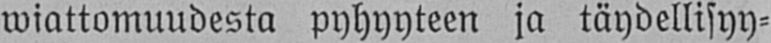wiattomuudesta pyhyyteen ja täydellisyy-
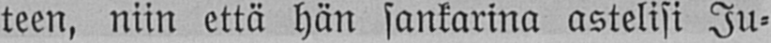teen, niin että hän sankarina astelisi Ju-
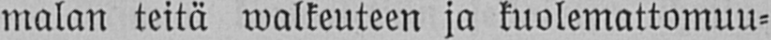malan teitä walkeuteen ja kuolemattomuu-
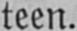teen.
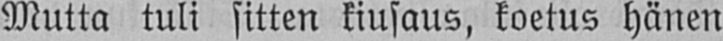Mutta tuli sitten kiusaus, koetus hänen
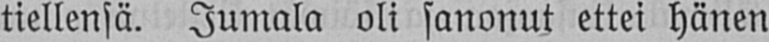tiellensä. Jumala oli sanonut ettei hänen
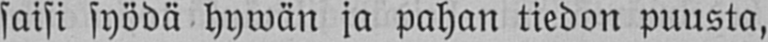saisi syödä hywän ja pahan tiedon puusta,
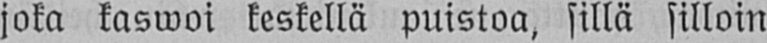joka kaswoi keskellä puistoa, sillä silloin
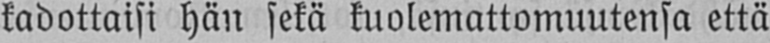kadottaisi hän sekä kuolemattomuutensa että
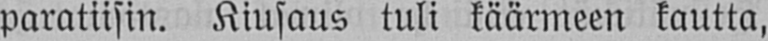paratiisin. Kiusaus tuli käärmeen kautta,
